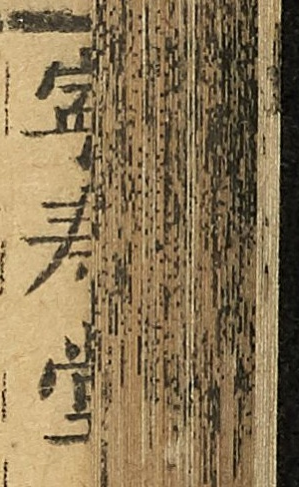寧壽堂
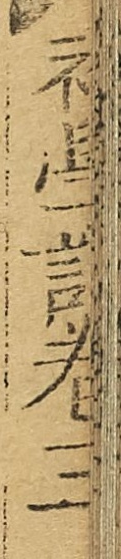初學記卷三
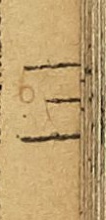三
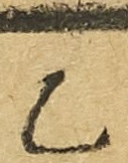乙
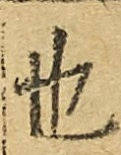也
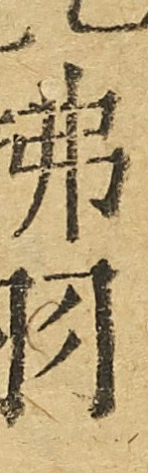拂羽
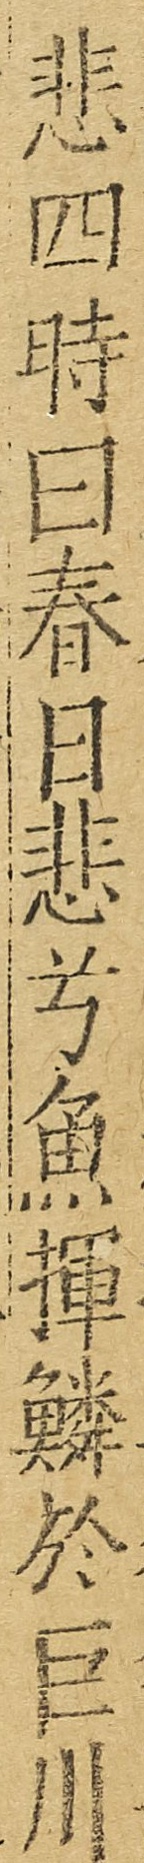悲四時曰春日悲兮魚揮鱗於巨川
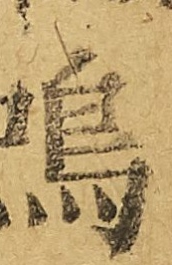鳴
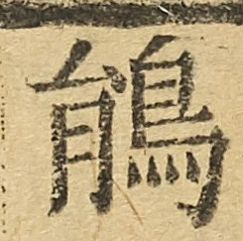鵑
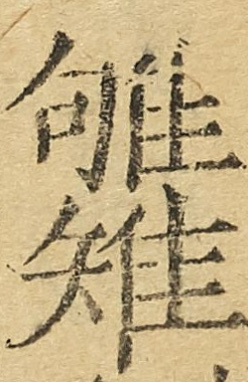雊雉
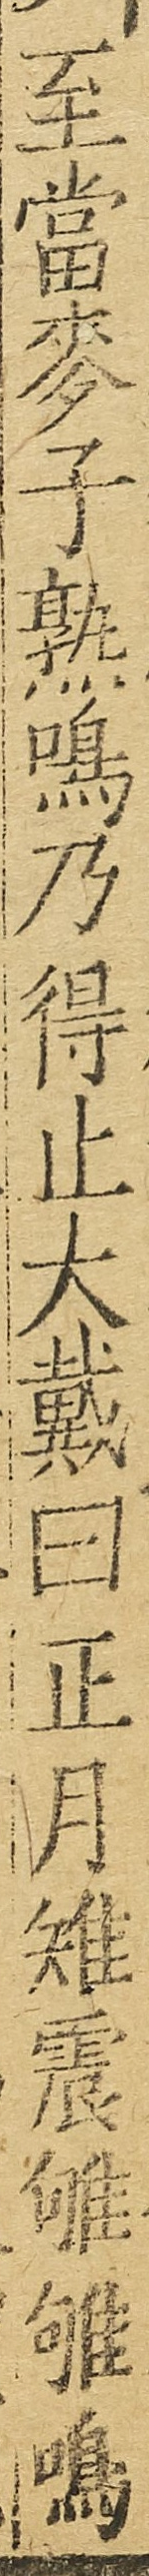至當麥子熟鳴乃得止大戴曰正月雉震雊雊鳴
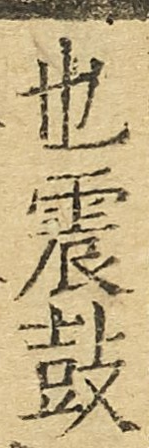也震鼓
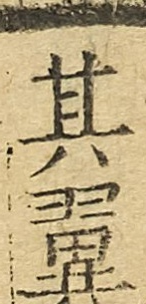其翼
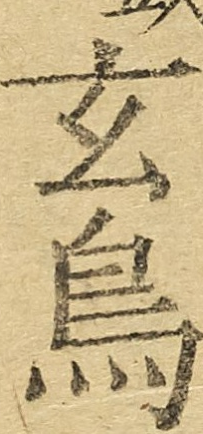玄鳥
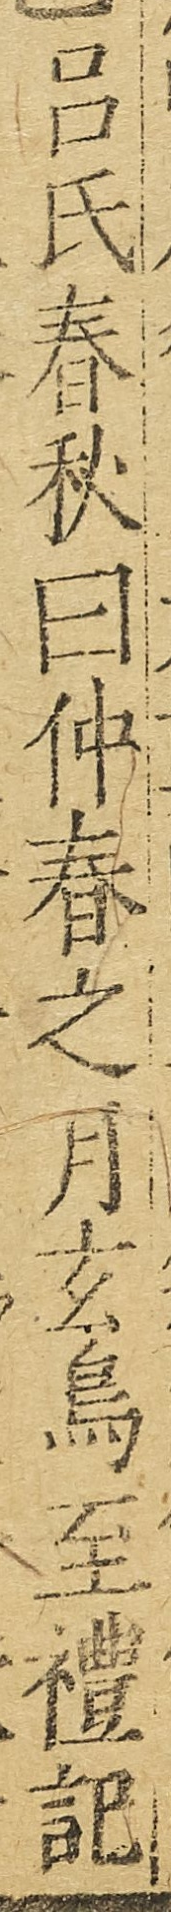呂氏春秋曰仲春之月玄鳥至禮記
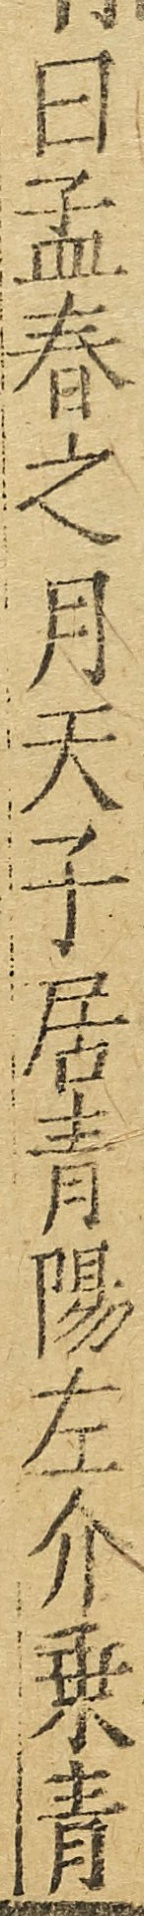曰孟春之月天子居青陽左介乘青
